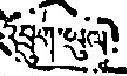འབྲུག་ཡུལ།
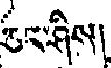ཅང་ཤིས།
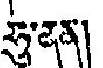ཧུ་ནན།
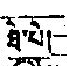ཐེ་པེ།
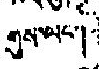གུས་ལང་།
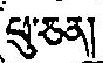ཕུ་ཅན།
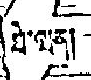ཐེ་ཝན།
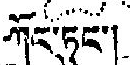ཀོང་ཏུང་།
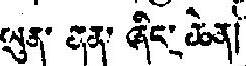ཡུན་ནན་ཞིང་ཆེན།
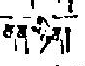ནན་ཉིན།
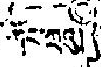ཀོང་ཀྲའུ།
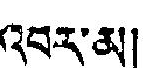འབར་མ།
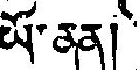ཡོ་ནན།
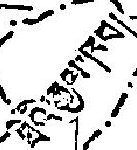ཐེའི་རྒྱལ་ཁབ།
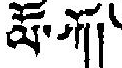ལོོ་ཀོ།
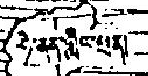ཧེ་ནན་གླིང་ཕྲན།
